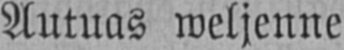Autuas weljenne
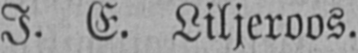J. E. Liljeroos.
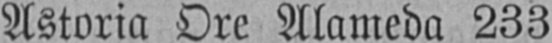Astoria Ore Alameda 233
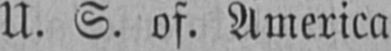U. S. of. America
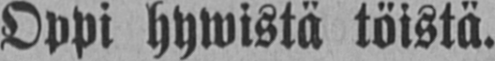Oppi hywistä töistä.
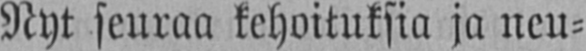Nyt seuraa kehoituksia ja neu-
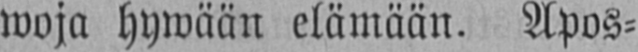woja hywään elämään. Apos-
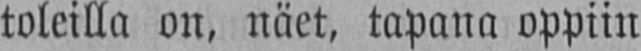toleilla on, näet, tapana oppiin
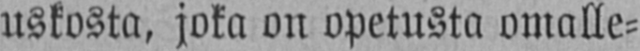uskosta, joka on opetusta omalle-
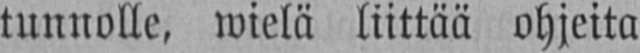tunnolle, wielä liittää ohjeita
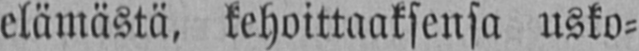elämästä, kehoittaaksensa usko-
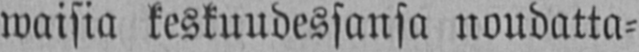waisia keskuudessansa noudatta-
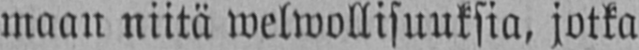maan niitä welwollisuuksia, jotka
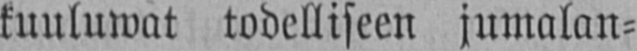kuuluwat todelliseen jumalan-
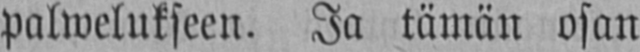palwelukseen. Ja tämän osan
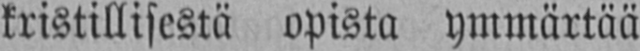kristillisestä opista ymmärtää
